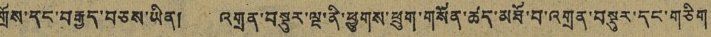གྲོས་དང་བརྒྱད་བཅས་ཡིན། འགྲན་བསྡུར་ལྔ་ནི་ཕྱུགས་ཕྲུག་གསོན་ཚད་མཐོ་བ་འགྲན་བསྡུར་དང་གཅིག
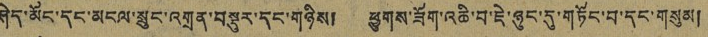ཤེད་མོང་དང་མངལ་སྲུང་འགྲན་བསྡུར་དནག་གཉིས། ཕྱུགས་ཟོག་འཆི་བ་ཇེ་ཉུང་དུ་གཏོང་བ་དང་གསུམ།
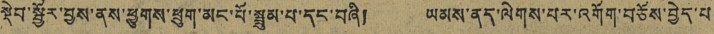སྡེབ་སྦྱོར་བྱས་ནས་ཕྱུགས་ཕྲུག་མང་པོ་སྦྲུམ་པ་དང་བཞི། ཡམས་ནད་ལེགས་པར་འགོག་བཅོས་བྱེད་པ
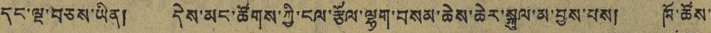དང་ལྔ་བཅས་ཡིན། དེས་མང་ཚོགས་ཀྱི་ངལ་རྩོལ་ལྷག་བསམ་ཆེས་ཆེར་སྐུལ་མ་བྱས་པས། ཁོ་ཚོས་
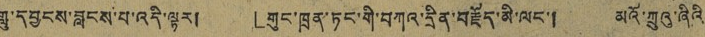གླུ་དབྱངས་བླངས་པ་འདི་ལྟར། 「གུང་ཁྲན་ཏང་གི་བཀའ་དྲིན་བརྗོད་མི་ལང་། མའོ་ཀྲུའུ་ཞིའི་
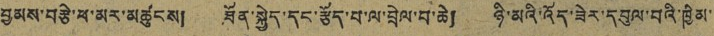བྱམས་བརྩེ་ཕམ་མར་མཚུངས། ཐོན་སྐྱེད་དང་རྩོད་པ་ལ་བྲེལ་བ་ཆེ། ཉི་མའི་འོད་ཟེར་དབུལ་བའི་ཁྱིམ་
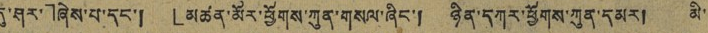དུ་ཤར་」ཞེས་པ་དང་། 「མཚན་མོར་ཕྱོགས་ཀུན་གསལ་ཞིང་། ཉིན་དཀར་ཕྱོགས་ཀུན་དམར། མི་
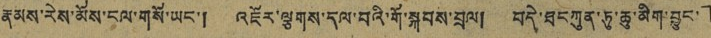རྣམས་རེས་མོས་ངལ་གསོ་ཡང་། འཇོར་ལྕགས་དལ་བའི་གོ་སྐབས་བྲལ། བདེ་ཐང་ཀུན་ཏུ་ཆུ་མིག་བྱུང་」
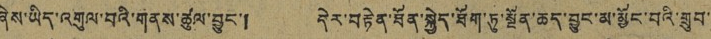ཞེས་ཡིད་འགུལ་བའི་གནས་ཚུལ་བྱུང་། དེར་བརྟེན་ཐོན་སྐྱེད་ཐོག་ཏུ་སྔོན་ཆད་བྱུང་མ་མྱོང་བའི་གྲུབ་
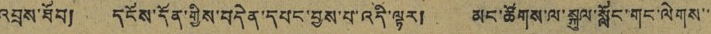འབྲས་ཐོབ། དངོས་དོན་གྱིས་བདེན་དཔང་བྱས་པ་འདི་ལྟར། མང་ཚོགས་ལ་སྐུལ་སློང་གང་ལེགས་
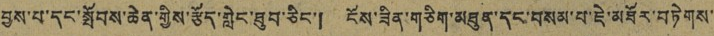བྱས་པ་དང་སྤོབས་ཆེན་གྱིས་རྩོད་གླེང་ཐུབ་ཅིང་། ངོས་ཟིན་གཅིག་མཐུན་དང་བསམ་པ་ཇེ་མཐོར་བཏེགས་
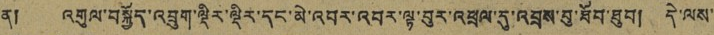ན། འགུལ་བསྐྱོད་འབྲུག་ལྡིར་ལྡིར་དང་མེ་འབར་འབར་ལྟ་བུར་འཕྲལ་དུ་འབྲས་བུ་ཐོབ་ཐུབ། དེ་ལས་
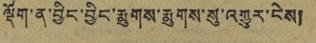ལྡོག་ན་བྱིང་བྱིང་རྨུགས་རྨུགས་སུ་འགྱུར་ངེས།
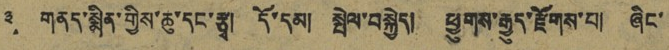༣ གནད་སྨིན་གྱིས་ཆུ་དང་རྩྭ། དོ་དམ། སྤེལ་བསྐྱེད། ཕྱུགས་རྒྱུད་རྫོགས་པ། ཞིང་
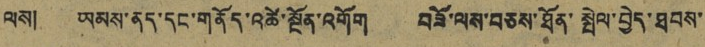ལས། ཡམས་ནད་དང་གནོད་འཚེ་སྔོན་འགོག བཟོ་ལས་བཅས་ཐོན་སྤེལ་བྱེད་ཐབས་
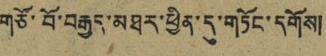གཙོ་བོ་བརྒྱད་མཐར་ཕྱིན་དུ་གཏོང་དགོས།
